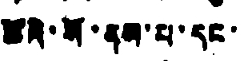ཚོའི་སོ་ནམ་པ་དང་
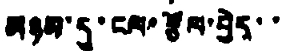མཉམ་དུ་ངལ་རྩོལ་བྱེད་་
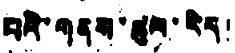པའི་གནས་ཚུལ་རེད།
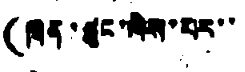(ཁྲན་ཙུང་ལེས་པར་་
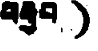བརྒྱབ)
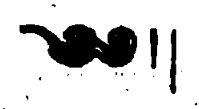༄༅༎
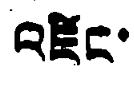འཛིང་
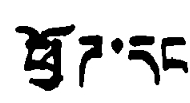ཕྱོཌ་དང
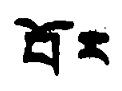པོར
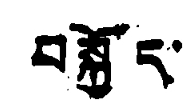བསྐྱོད་
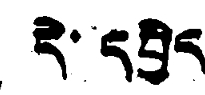དེ་དཔྱིད
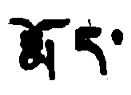རྨོད་
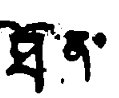ཐོན་
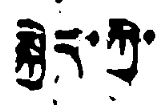སྐྱེད་ཀྱི་
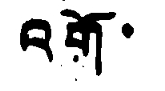འགོ་
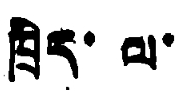ཁྲིད་ ལ་
